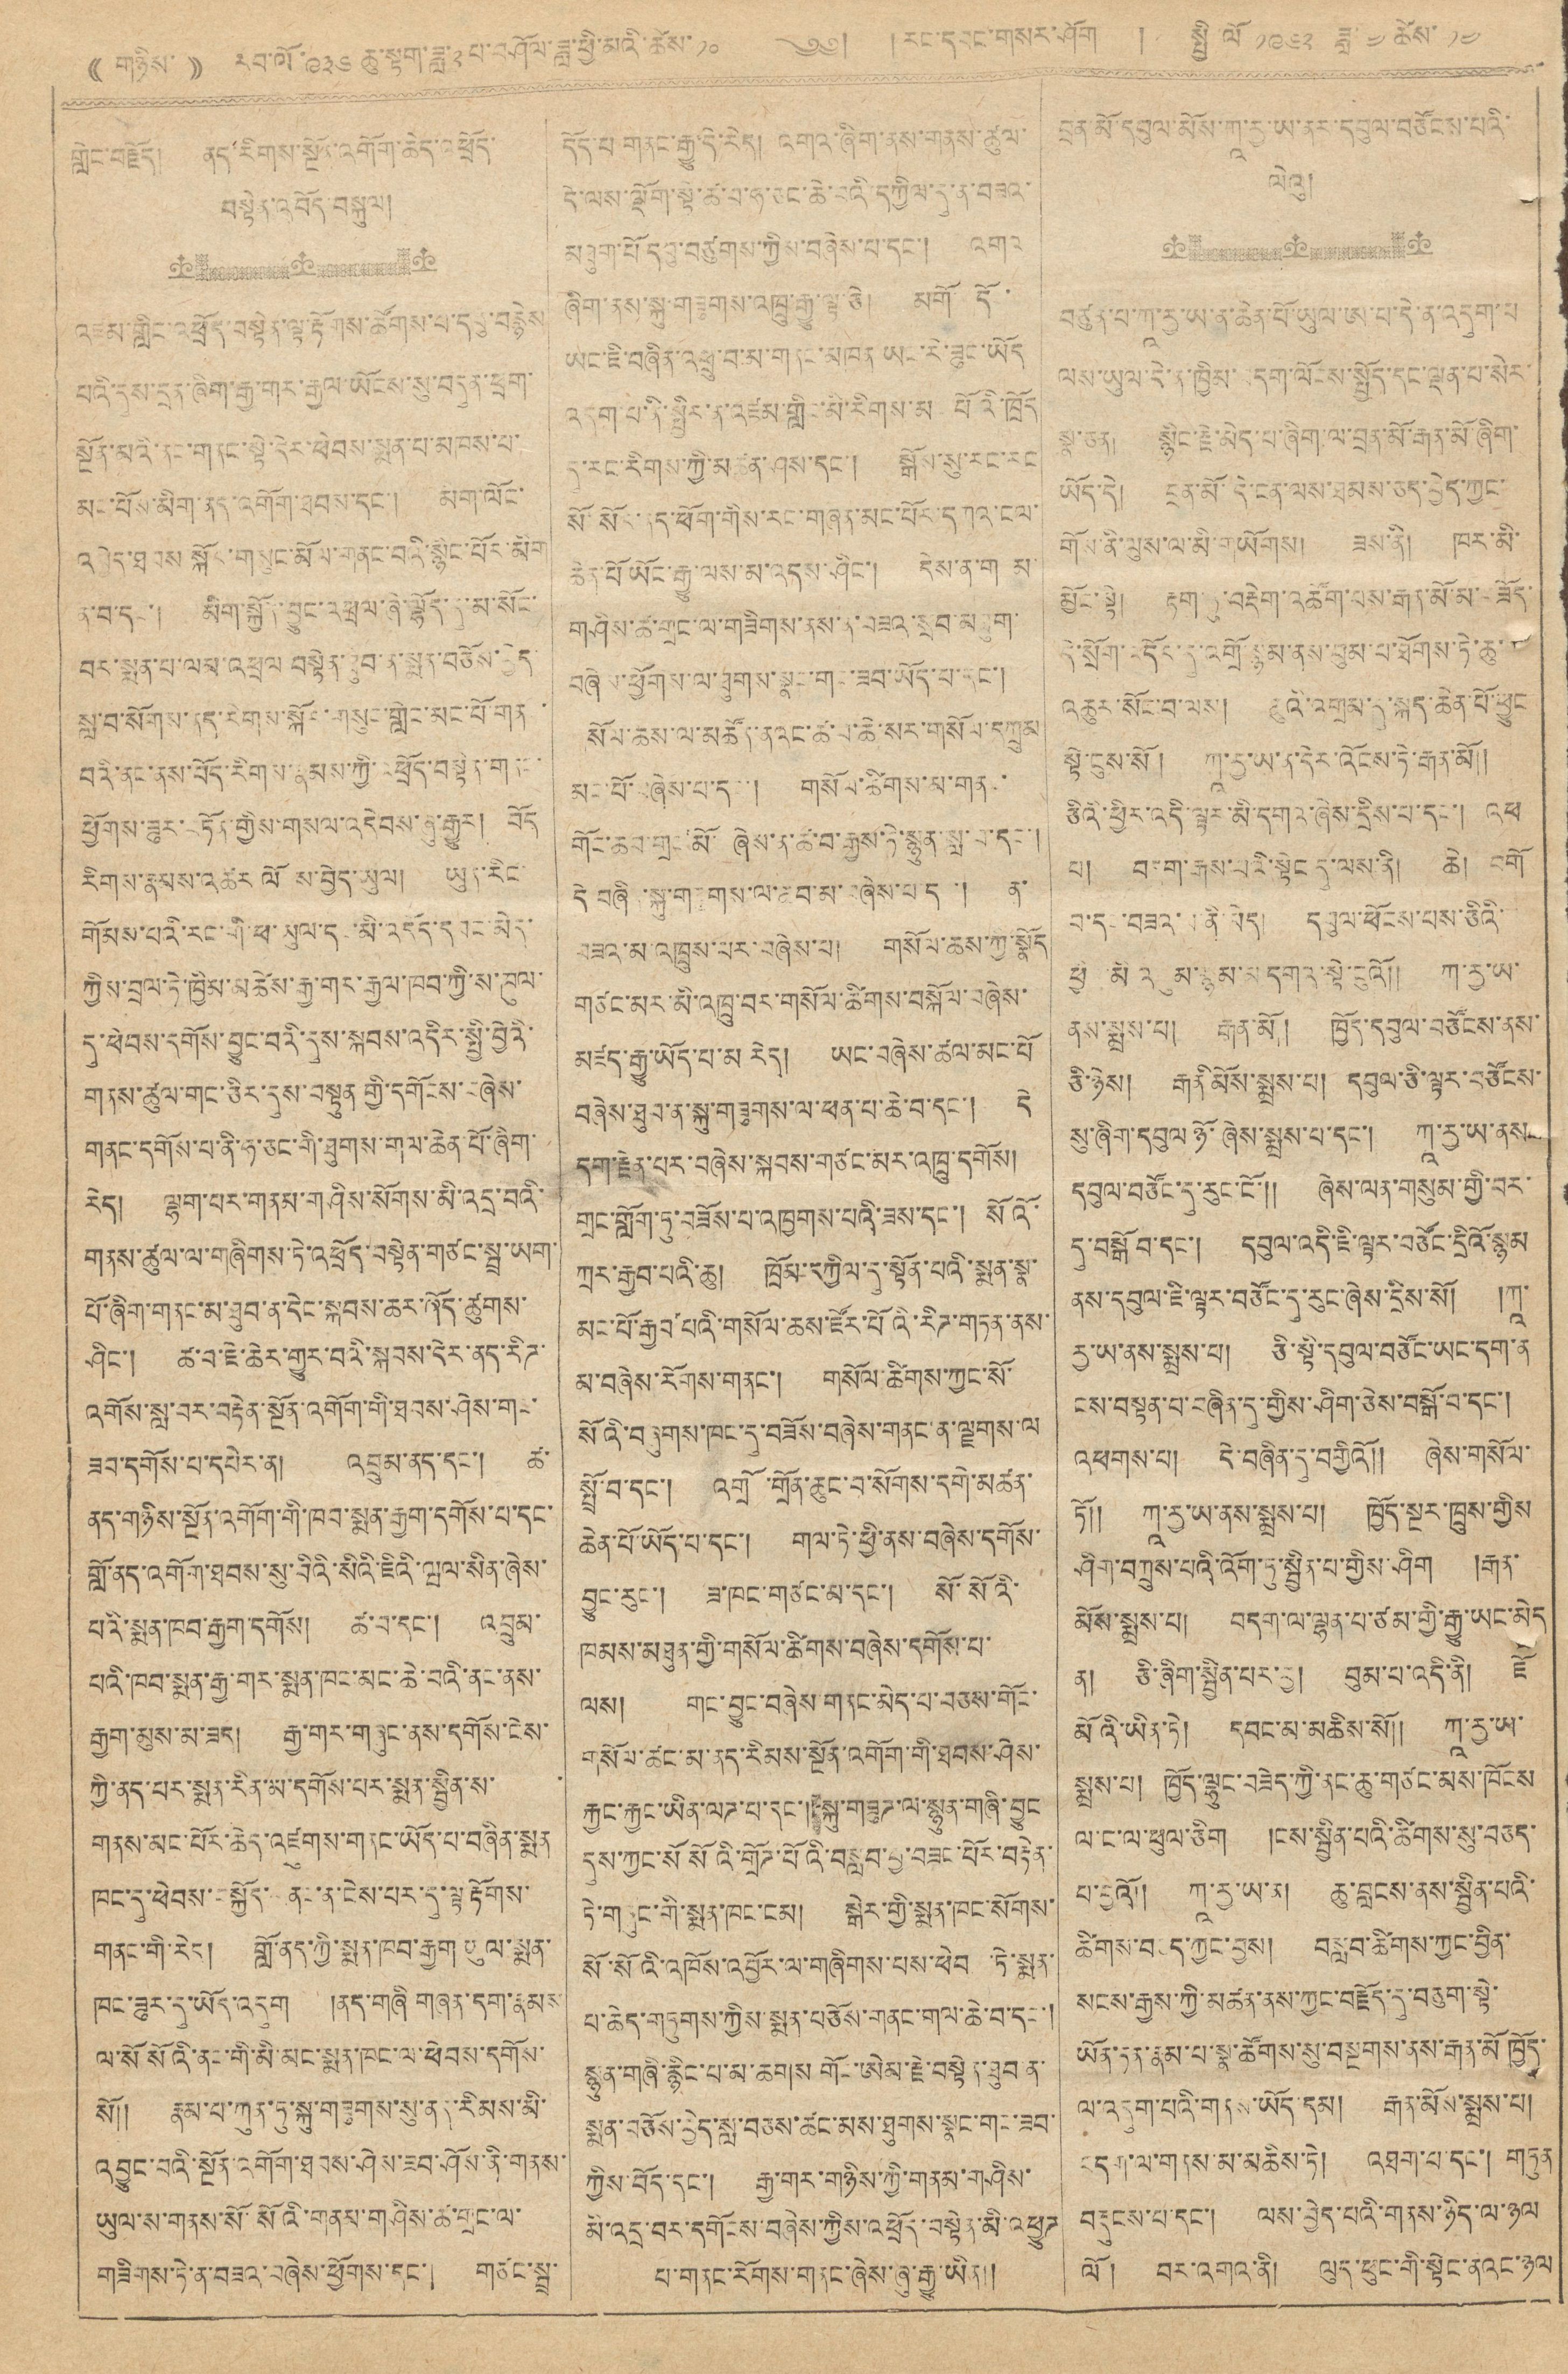( གཉིས་ )) རབ་ལོ་ ༩༣༦ ཆུ་སྟག་ཟླ་༢པ་བཤོལ་ཟླ་ཕྱི་མའི་ཚེས་ ༡༠ ༄༅། །རང་དབང་གསར་ཤོག ། སྤྱི་ལོ ༡༩༦༢ ཟླ་ ༤ ཚེས་ ༡༠
གླེང་བརྗོད། ནད་རིགས་སྔོན་འགོག་ཆེད་འཕྲོད་
བསྟེན་འབོད་བསྐུལ།
འཛམ་གླིང་འཕྲོད་བསྟེན་ལྟ་རྟོགས་ཚོགས་པ་དབུ་བརྙེས་
པའི་དུས་དྲན་ཞིག་རྒྱ་གར་རྒྱལ་ཡོངས་སུ་བདུན་ཕྲག་
སྔོན་མའི་ནང་གནང་སྟེ་དེར་ཕེབས་སྨན་པ་མཁས་པ་
མང་པོས་མིག་ནད་འགོག་ཐབས་དང་། མིག་ལོང་
འབྱེད་ཐབས སྐོར་གསུང་མོལ་གནང་བའི་སྙིང་པོར་མིག
ན་བ་དང་། མིག་སྐྱོན་བྱུང་འཕྲལ་ཞེ་ལྷོད་དུ་མ་སོང་
བར་སྨན་པ་ལམ་འཕྲལ་བསྟེན་ཐུབ་ན་སྨན་བཅོས་བྱེད་
སླ་བ་སོགས་ནད་རིགས་སྐོར་གསུང་གླེང་མང་པོ་གནང་
བའི་ནང་ནས་བོད་རིགས་རྣམས་ཀྱི་འཕྲོད་བསྟེན་གནང་
ཕྱོགས་ཟུར་བཏོན་གྱིས་གསལ་འདེབས་ཞུ་རྒྱུར། བོད་
རིགས་རྣམས་འཚར་ལོངས་བྱེད་ཡུལ། ཡུན་རིང་
གོམས་པའི་རང་གི་ཕ་ཡུལ་དང་མི་འདོད་དབང་མེད་
ཀྱིས་བྲལ་ཏེ་ཁྱིམ་མཚེས་རྒྱ་གར་རྒྱལ་ཁབ་ཀྱི་ས་ཁུལ་
དུ་ཕེབས་དགོས་བྱུང་བའི་དུས་སྐབས་འདིར་སྤྱི་བྱེའི་
གནས་ཚུལ་གང་ཅིར་དུས་བསྟུན་གྱི་དགོངས་བཞེས་
གནང་དགོས་པ་ནི་ཧ་ཅང་གི་ཐུགས་གལ་ཆེན་པོ་ཞིག་
རེད། ལྷག་པར་གནམ་གཤིས་སོགས་མི་འདྲ་བའི་
གནས་ཚུལ་ལ་གཞིགས་ཏེ་འཕྲོད་བསྟེན་གཙང་སྦྲ་ཡག་
པོ་ཞིག་གནང་མ་ཐུབ་ན་དེང་སྐབས་ཆར་ཞོད་ཚུགས་
ཤིང་། ཚ་བ་ཇེ་ཆེར་གྱུར་བའི་སྐབས་དེར་ནད་རིཌ་
འགོས་སླ་བར་བརྟེན་སྔོན་འགོག་གི་ཐབས་ཤེས་གང་
ཟབ་དགོས་པ་དཔེར་ན། འབྲུམ་ནད་དང་། ཚ་
ནད་གཉིས་སྔོན་འགོག་གི་ཁབ་སྨན་རྒྱག་དགོས་པ་དང་
གློ་ནད་འགོག་ཐབས་སུ་བིའི་སིའི་ཇིའི་ཝལ་སིན་ཞེས་
པའི་སྨན་ཁབ་རྒྱག་དགོས། ཚ་བ་དང་། འབྲུམ་
པའི་ཁབ་སྨན་རྒྱ་གར་སྨན་ཁང་མང་ཆེ་བའི་ནང་ནས་
རྒྱག་མུས་མ་ཟད། རྒྱ་གར་གཞུང་ནས་དགོས་ངེས་
ཀྱི་ནད་པར་སྨན་རིན་མ་དགོས་པར་སྨན་སྦྱིན་ས་
གནས་མང་པོར་ཆེད་འཛུགས་གནང་ཡོད་པ་བཞིན་སྨན་
ཁང་དུ་ཕེབས་བསྐྱོད་གནང་ན་ངེས་པར་དུ་ལྟ་རྟོགས་
གནང་གི་རེད། གློ་ནད་ཀྱི་སྨན་ཁབ་རྒྱག་ཡུལ་སྨན་
ཁང་ཟུར་དུ་ཡོད་འདུག །ནད་གཞི གཞན་དག་རྣམས
ལ་སོ སོའི་ནང་གི་མི་མང་སྨན་ཁང་ལ་ཕེབས་དགོས་
སོ།། རྣམ་པ་ཀུན་ཏུ་སྐུ་གཟུགས་སུ་ནད་རིམས་མི་
འབྱུང་བའི་སྔོན་འགོག་ཐབས་ཤེས་ཟབ་ཤོས་ནི་གནས་
ཡུལ་ས་གནས་སོ་སོའི་གནམ་གཤིས་ཚ་གྲང་ལ་
གཟིགས་ཏེ་ན་བཟའ་བཞེས་ཕྱོགས་དང་། གཙང་སྦྲ་
དོད་པ་གནང་རྒྱུ་དེ་རེད། འགའ་ཞིག་ནས་གནས་ཚུལ་
དེ་ལས་ལྡོག་སྟེ་ཚ་བ་ཧ་ཅང་ཆེ་བའི་དཀྱིལ་དུ་ན་བཟའ་
མཐུག་པོ་དབུ་བཙུགས་ཀྱིས་བཞེས་པ་དང་། འགའ
ཞིག་ནས་སྐུ་གཟུགས་འཁྲུ་རྒྱུ་ལྟ་ཅི། མགོ་གདོང་
ཡང་ཇི་བཞིན་འཕྲུ་བ་མ་གནང་མཁན་ཡང་རེ་ཟུང་ཡོད།
འདུག་པ་ནི་སྤྱིར་ན་འཛམ་གླིང་མི་རིགས་མང་པོའི་ཁྲོད
དུ་རང་རིགས་ཀྱི་མཚན་ཤས་དང་། སྒོས་སུ་རང་རང
སོ་སོར་ནད་ཕོག་གིས་རང་གཞན་མང་པོར་དཀའ་ངལ་
ཆེན་པོ་ཡོང་རྒྱུ་ལས་མ་འདས་ཤིང་། དེས་ན་གནམ་
གཤིས་ཚ་གྲང་ལ་གཟིགས་ནས་ན་བཟའ་སྲབ་མཐུག་
བཞེས་ཕྱོགས་ལ་ཐུགས་སྣང་གང་ཟབ་ཡོད་པ་དང་།
སོལ་ཆས་ལ་མཚོན་ནའང་ཚ་བ་ཆེ་སར་གསོལ་དཀྲུམ་
མང་པོ་བཞེས་པ་དང་། གསོལ་ཚིགས་མ་གནང་
གོང་ཆབ་གྲང་མོ་ཞེས་ན་ཚ་བ་རྒྱས་ཏེ་སྙུན་སླ་བ་དང་།
དེ་བཞིན་སྐུ་གཟུགས་ལ་ཆབ་མ་བཞེས་པ་དང་། ན་
བཟའ་མ་འཁྲུས་པར་བཞེས་པ། གསོལ་ཆས་ཀྱི་སྣོད་
གཙང་མར་མི་འཁྲུ་བར་གསོལ་ཚིགས་བསྐོལ་བཞེས་
མཛད་རྒྱུ་ཡོད་པ་མ་རེད། ཡང་བཞེས་ཚལ་མང་པོ་
བཞེས་ཐུབ་ན་སྐུ་གཟུགས་ལ་ཕན་པ་ཆེ་བ་དང་། དེ་
དག་རྗེན་པར་བཞེས་སྐབས་གཙང་མར་འཁྲུ་དགོས།
གྲང་གློག་ཏུ་བཟོས་པ་འཁྱགས་པའི་ཟས་དང་། སོའོ་
ཀྲར་རྒྱབ་པའི་ཆུ། ཁྲོམ་དཀྱིལ་དུ་སྟོན་པའི་སྨན་སྣ་
མང་པོ་རྒྱབ་པའི་གསོལ་ཆས་ཛོར་པོའི་རིཌ་གཏན་ནས་
མ་བཞེས་རོགས་གནང་། གསོལ་ཚིགས་ཀྱང་སོ་
སོའི་བཞུགས་ཁང་དུ་བཟོས་བཞེས་གནང་ན་ལྗགས་ལ
སྤྲོ་བ་དང་། འགྲོ་གྲོན་ཆུང་བ་སོགས་དགེ་མཚན་
ཆེན་པོ་ཡོད་པ་དང་། གལ་ཏེ་ཕྱི་ནས་བཞེས་དགོས་
བྱུང་རུང་། ཟ་ཁང་གཙང་མ་དང་། སོ་སོའི་
ཁམས་མཐུན་གྱི་གསོལ་ཚིགས་བཞེས་དགོས་པ་
ལས། གང་བྱུང་བཞེས་གནང་མེད་པ་བཅས་གོང་
གསོལ་ཚང་མ་ནད་རིམས་སྔོན་འགོག་གི་ཐབས་ཤེས་
རྐྱང་རྐྱང་ཡིན་ལཌ་པ་དང་། སྐུ་གཟུཌ་ལ་སྙུན་གཞི་བྱུང
དུས་ཀྱང་སོ སོའི་གྲོཌ་པོའི་བསླབ་བྱ་བཟང་པོར་བརྟེན་
ཏེ་གཞུང་གི་སྨན་ཁང་ངམ། སྒེར་གྱི་སྨན་ཁང་སོགས་
སོ་སོའི་འཁོས་འབྱོར་ལ་གཞིགས་པས་ཕེབས་ཏེ་སྨན་
པ་ཆེད་གཏུགས་ཀྱིས་སྨན་བཅོས་གནང་གལ་ཆེ་བ་དང་།
སྙུན་གཞི་རྙིང་པ་མ་ཆགས གོང་ཨེམ་རྗེ་བསྟེན་ཐུབ་ན་
སྨན་བཅོས་བྱེད་སླ་བཅས་ཚང་མས་ཐུགས་སྣང་གང་ཟབ་
ཀྱིས་བོད་དང་། རྒྱ་གར་གཉིས་ཀྱི་གནམ་གཤིས་
མི་འདྲ་བར་དགོངས་བཞེས་ཀྱིས་འཕྲོད་བསྟེན་མི་འཕྱུཌ་
པ་གནང་རོགས་གནང་ཞེས་ཞུ་རྒྱུ་ཡིན།།
དྲན་མོ་དབུལ་མོས་ཀ་ རྱ་ཡ་ནར་དབུལ་བཙོངས་པའི་
ལེའུ།
བཙུན་པ་ཀཱ་རྱ་ཡ་ན་ཆེན་པོ་ཡུལ་ཨ་པ་དེ་ན་འདུག་པ།
ལས་ཡུལ་དེ་ན་ཁྱིམ་བདག་ལོངས་སྤྱོད་དང་ལྡན་པ་སེར་
སྣ་ཅན། སྙིང་རྗེ་མེད་པ་ཞིག་ལ་བྲན་མོ་རྒན་མོ་ཞིག་
ཡོད་དེ། བྲན་མོ་དེ་ངན་ལས་ཐམས་ཅད་བྱེད་ཀྱང་།
གོས་ནི་ལུས་ལ་མི་གཡོགས། ཟས་ནི། ཁར་མི་
མྱོང་སྟེ། རྟག་ཏུ་བརྡེག་འཚོག་པས་རྒན་མོ་མ་བཟོད་
དེ་སྲོག་འདོར་དུ་འགྲོ་སྙམ་ནས་བུམ་པ་ཐོགས་ཏེ་ཆུ་
འཆུར་སོང་བ་ལས། ཆུའི་འགྲམ་དུ་སྐད་ཆེན་པོ་ཕྱུང་
སྟེ་ངུས་སོ། ཀཱ་རྱ་ཡ་ན་དེར་འོངས་ཏེ་རྒན་མོ།།
ཅིའི་ཕྱིར་འདི་ལྟར་མི་དགའ་ཞེས་དྲིས་པ་དང་། འཕ
པ། བདག་རྒས་པའི་སྟེང་དུ་ལས་ནི། ཆེ། བགོ
བ་དང་བཟའ་པ་ནི་མེད། དབུལ་ཕོངས་པས་ཅིའི་
ཕྱིར་མི་འཛུམ་སྙམ་མ དགའ་སྟེ་ངུའོ།། ཀ་རྱ་ཡ་
ནས་སྨྲས་པ། རྒན་མོ། ཁྱོད་དབུལ་བཙོངས་ནས་
ཅི་ཉེས། རྒནི མོས་སྨྲས་པ། དབུལ་ཅི་ལྟར་བཙོངས་
སུ་ཞིག་དབུལ་ཉོ་ཞེས་སྨྲས་པ་དང་། ཀ་རྱ་ཡ་ནས་
དབུལ་བཙོང་དུ་རུང་ངོ་།། ཞེས་ལན་གསུམ་གྱི་བར་
དུ་བསྒོ བ་དང་། དབུལ་འདི་ཇི་ལྟར་བཙོང་དྲིའོ་སྙམ
ནས་དབུལ་ཇི་ལྟར་བཙོང་དུ་རུང་ཞེས་དྲིས་སོ། །ཀཱ་
རྱ་ཡ་ནས་སྨྲས་པ། ཅི་སྟི་དབུལ་བཙོང་ཡང་དག་ན་
ངས་བསྟན་པ་བཞིན་དུ་གྱིས་ཤིག་ཅེས་བསྒོ་བ་དང་།
འཕགས་པ། དེ་བཞིན་དུ་བགྱིའོ།། ཞེས་གསོལ་
ཏོ།། ཀཱ་རྱ་ཡ་ནས་སྨྲས་པ། ཁྱོད་སྔར་ཁྲུས་གྱིས
ཤིག་བཀྲུས་པའི་འོག་ཏུ་སྦྱིན་པ་གྱིས་ཤིག །རྒན་
མོས་སྨྲས་པ། བདག་ལ་ལྷན་པ་ཙམ་གྱི་རྒྱུ་ཡང་མེད་
ན། ཅི་ཞིག་སྦྱིན་པར་བྱ། བུམ་པ་འདི་ནི། ཇོ་
མོའི་ཡིན་ཏེ། དབང་མ་མཆིས་སོ།། ཀ་རྱ་ཡ་
སྨྲས་པ། ཁྱོད་ལྷུང་བཟེད་ཀྱི་ནང་ཆུ་གཙང་མས་ཁོངས་
ལ་ང་ལ་ཕུལ་ཅིག །ངས་སྦྱིན་པའི་ཚིགས་སུ་བཅད་
པ་བྱའོ། ཀ་རྱ་ཡ་ན། ཆུ་བླངས་ནས་སྦྱིན་པའི་
ཚིགས་བཅད་ཀྱང་བྱས། བསླབ་ཚིགས་ཀྱང་བྱིན་
སངས་རྒྱས་ཀྱི་མཚན་ནས་ཀྱང་བརྗོད་དུ་བཅུག་སྟེ་
ཡོན་ཏན་རྣམ་པ་སྣ་ཚོགས་སུ་བསྔགས་ནས་རྒན་མོ་ཁྱོད་
ལ་འདུག་པའི་གནས་ཡོད་དམ། རྒན་མོས་སྨྲས་པ།
བདག་ལ་གནས་མ་མཆིས་ཏེ། འཐག་པ་དང་། གཏུན
བརྡུངས་པ་དང་། ལས་བྱེད་པའི་གནས་ཉིད་ལ་ཉལ་
ལོ།  བར་འགའ་ནི། ལུད་ཕུང་གི་སྟེང་ནའང་ཉལ་
